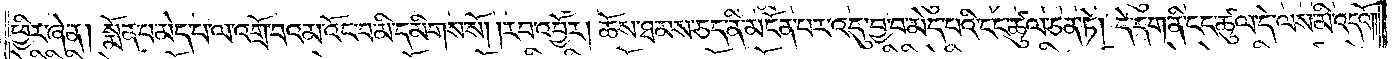ཕྱིར་ཞེ་ན། སྨོན་པ་མེད་པ་ལ་འགྲོ་བའམ་འོང་བ་མི་དམིགས་སོ། །རབ་འབྱོར། ཆོས་ཐམས་ཅད་ནི་མངོན་པར་འདུ་བྱ་བ་མེད་པའི་ངང་ཚུལ་ཅན་ཏེ། དེ་དག་ནི་ངང་ཚུལ་དེ་ལས་མི་འདའོ༎
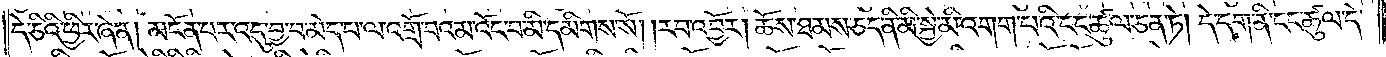དེ་ཅིའི་ཕྱིར་ཞེ་ན། མངོན་པར་འདུ་བྱ་བ་མེད་པ་ལ་འགྲོ་བའམ་འོང་བ་མི་དམིགས་སོ། །རབ་འབྱོར། ཆོས་ཐམས་ཅད་ནི་མི་སྐྱེ་མི་འགག་པའི་ངང་ཚུལ་ཅན་ཏེ། དེ་དག་ནི་ངང་ཚུལ་དེ་
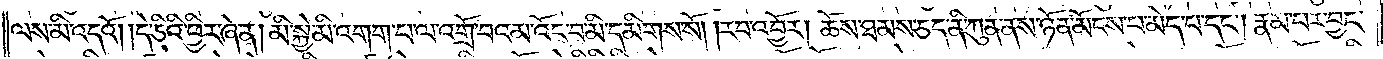ལས་མི་འདའོ། །དེ་ཅིའི་ཕྱིར་ཞེ་ན། མི་སྐྱེ་མི་འགག་པ་ལ་འགྲོ་བའམ་འོང་བ་མི་དམིགས་སོ། །རབ་འབྱོར། ཆོས་ཐམས་ཅད་ནི་ཀུན་ནས་ཉོན་མོངས་པ་མེད་པ་དང༌། རྣམ་པར་བྱང་
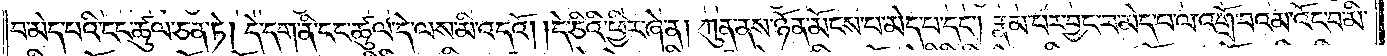བ་མེད་པའི་ངང་ཚུལ་ཅན་ཏེ། དེ་དག་ནི་ངང་ཚུལ་དེ་ལས་མི་འདའོ། དེ་ཅིའི་ཕྱིར་ཞེ་ན། ཀུན་ནས་ཉོན་མོངས་པ་མེད་པ་དང༌། རྣམ་པར་བྱང་བ་མེད་པ་ལ་འགྲོ་བའམ་འོང་བ་མི་
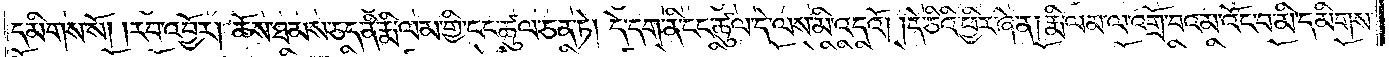དམིགས་སོ། །རབ་འབྱོར། ཆོས་ཐམས་ཅད་ནི་རྨི་ལམ་གྱི་ངང་ཚུལ་ཅན་ཏེ། དེ་དག་ནི་ངང་ཚུལ་དེ་ལས་མི་འདའོ། །དེ་ཅིའི་ཕྱིར་ཞེ་ན། རྨི་ལམ་ལ་འགྲོ་བའམ་འོང་བ་མི་དམིགས་
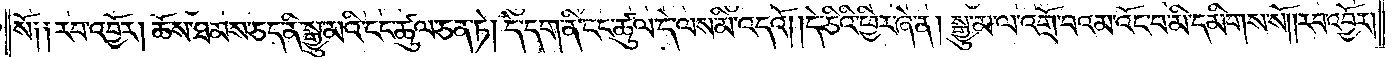སོ༑ ༑རབ་འབྱོར། ཆོས་ཐམས་ཅད་ནི་སྒྱུ་མའི་ངང་ཚུལ་ཅན་ཏེ། དེ་དག་ནི་ངང་ཚུལ་དེ་ལས་མི་འདའོ། །དེ་ཅིའི་ཕྱིར་ཞེ་ན། སྒྱུ་མ་ལ་འགྲོ་བའམ་འོང་བ་མི་དམིགས་སོ། །རབ་འབྱོར།
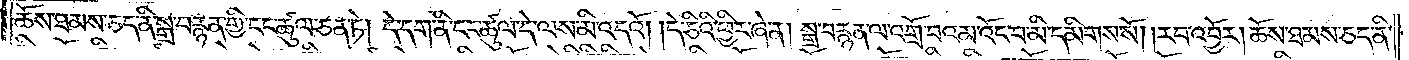ཆོས་ཐམས་ཅད་ནི་སྒྲ་བརྙན་གྱི་ངང་ཚུལ་ཅན་ཏེ། དེ་དག་ནི་ངང་ཚུལ་དེ་ལས་མི་འདའོ། །དེ་ཅིའི་ཕྱིར་ཞེ་ན། སྒྲ་བརྙན་ལ་འགྲོ་བའམ་འོང་བ་མི་དམིགས་སོ། །རབ་འབྱོར། ཆོས་ཐམས་ཅད་ནི་
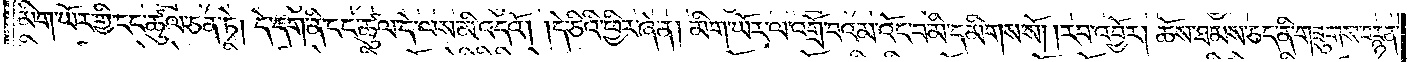མིག་ཡོར་གྱི་ངང་ཚུལ་ཅན་ཏེ། དེ་དག་ནི་ངང་ཚུལ་དེ་ལས་མི་འདའོ། །དེ་ཅིའི་ཕྱིར་ཞེ་ན། མིག་ཡོར་ལ་འགྲོ་བའམ་འོང་བ་མི་དམིགས་སོ། །རབ་འབྱོར། ཆོས་ཐམས་ཅད་ནི་གཟུགས་བརྙན་
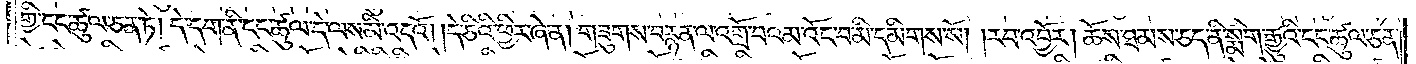གྱི་ངང་ཚུལ་ཅན་ཏེ། དེ་དག་ནི་ངང་ཚུལ་དེ་ལས་མི་འདའོ། །དེ་ཅིའི་ཕྱིར་ཞེ་ན། གཟུགས་བརྙན་ལ་འགྲོ་བའམ་འོང་བ་མི་དམིགས་སོ། །རབ་འབྱོར། ཆོས་ཐམས་ཅད་ནི་སྨིག་རྒྱུའི་ངང་ཚུལ་ཅན་
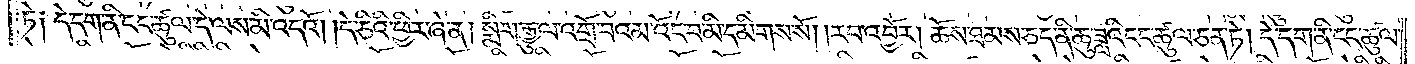ཏེ༑ དེ་དག་ནི་ངང་ཚུལ་དེ་ལས་མི་འདའོ། །དེ་ཅིའི་ཕྱིར་ཞེ་ན། སྨིག་རྒྱུ་ལ་འགྲོ་བའམ་འོང་བ་མི་དམིགས་སོ། །རབ་འབྱོར། ཆོས་ཐམས་ཅད་ནི་ཆུ་ཟླའི་ངང་ཚུལ་ཅན་ཏེ། དེ་དག་ནི་ངང་ཚུལ་
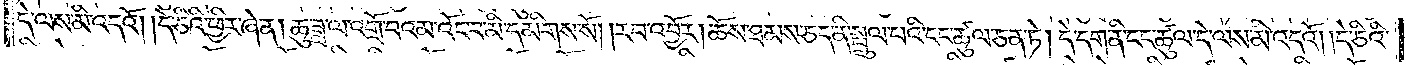དེ་ལས་མི་འདའོ། །དེ་ཅིའི་ཕྱིར་ཞེ་ན། ཆུ་ཟླ་ལ་འགྲོ་བའམ་འོང་བ་མི་དམིགས་སོ། །རབ་འབྱོར། ཆོས་ཐམས་ཅད་ནི་སྤྲུལ་པའི་ངང་ཚུལ་ཅན་ཏེ། དེ་དག་ནི་ངང་ཚུལ་དེ་ལས་མི་འདའོ། །དེ་ཅིའི་
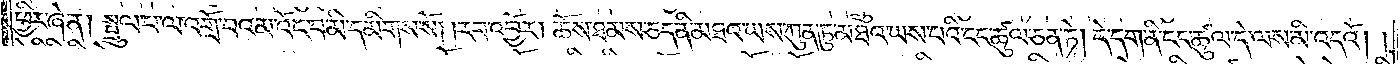ཕྱིར་ཞེ་ན། སྤྲུལ་པ་ལ་འགྲོ་བའམ་འོང་བ་མི་དམིགས་སོ། །རབ་འབྱོར། ཆོས་ཐམས་ཅད་ནི་མཐའ་ཡས་ཀུན་ཏུ་མཐའ་ཡས་པའི་ངང་ཚུལ་ཅན་ཏེ། དེ་དག་ནི་ངང་ཚུལ་དེ་ལས་མི་འདའོ༎
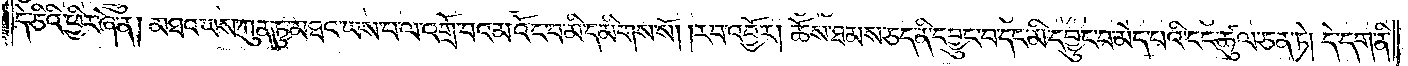དེ་ཅིའི་ཕྱིར་ཞེ་ན། མཐའ་ཡས་ཀུན་ཏུ་མཐའ་ཡས་པ་ལ་འགྲོ་བའམ་འོང་བ་མི་དམིགས་སོ། །རབ་འབྱོར། ཆོས་ཐམས་ཅད་ནི་དབྱུང་བ་དང་མི་དབྱུང་བ་མེད་པའི་ངང་ཚུལ་ཅན་ཏེ། དེ་དག་ནི་
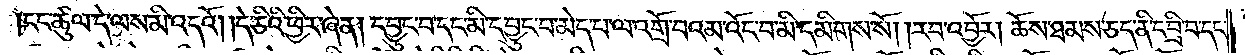ངང་ཚུལ་དེ་ལས་མི་འདའོ། །དེ་ཅིའི་ཕྱིར་ཞེ་ན། དབྱུང་བ་དང་མི་དབྱུང་བ་མེད་པ་ལ་འགྲོ་བའམ་འོང་བ་མི་དམིགས་སོ། །རབ་འབྱོར། ཆོས་ཐམས་ཅད་ནི་དབྲི་བ་དང་
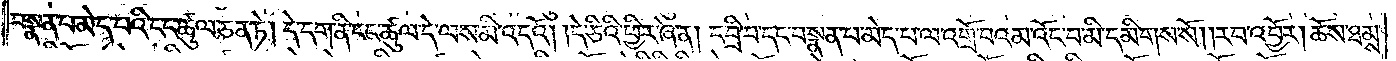བསྣན་པ་མེད་པའི་ངང་ཚུལ་ཅན་ཏེ། དེ་དག་ནི་ངང་ཚུལ་དེ་ལས་མི་འདའོ། །དེ་ཅིའི་ཕྱིར་ཞེ་ན། དབྲི་བ་དང་བསྣན་པ་མེད་པ་ལ་འགྲོ་བའམ་མ་འོང་བ་མི་དམིགས་སོ། །རབ་འབྱོར། ཆོས་ཐམས་
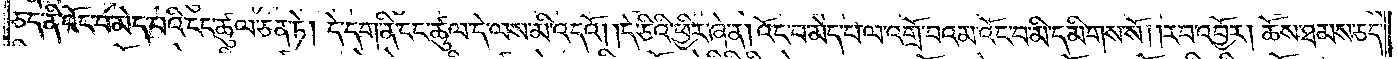ཅད་ནི་འོང་བ་མེད་པའི་ངང་ཚུལ་ཅན་ཏེ། དེ་དག་ནི་ངང་ཚུལ་དེ་ལས་མི་འདའོ། །དེ་ཅིའི་ཕྱིར་ཞེ་ན། འོང་བ་མེད་པ་ལ་འགྲོ་བའམ་འོང་བ་མི་དམིགས་སོ། །རབ་འབྱོར། ཆོས་ཐམས་ཅད་
